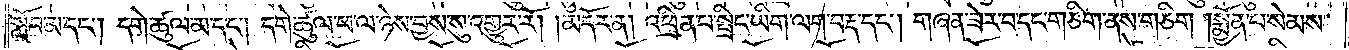སློབ་མ་དང༌། དགེ་ཚུལ་མ་དང༌། དགེ་ཚུལ་ཕ་ལ་ཉེས་བྱས་སུ་འགྱུར་རོ།    །མདོར་ན། འཕྲིན་པ་སྤྲིང་ཡིག་ལག་བརྡ་དང༌། གཞན་ཟེར་བ་དང་གཅིག་ནས་གཅིག །སྨྱོན་པ་སེམས་
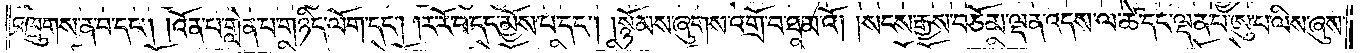འཁྲུགས་ན་བ་དང༌། །འོན་པ་གླེན་པ་གཉིད་ལོག་དང༌། །ར་རོ་བ་དང་མྱོས་པ་དང༌། །སྙོམས་ཞུགས་འགྲོ་བ་ཐ་མ་འོ། །སངས་རྒྱས་བཅོམ་ལྡན་འདས་ལ་ཚེ་དང་ལྡན་པ་ཨུ་པ་ལིས་ཞུས་
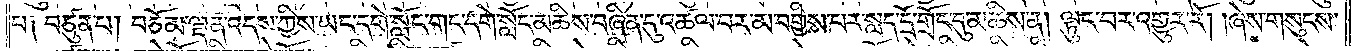པ༑ བཙུན་པ། བཅོམ་ལྡན་འདས་ཀྱིས་ཡང་དགེ་སློང་གང་དགེ་སློང་མཆིས་བཞིན་དུ་འཚལ་བར་མ་བགྱིས་པར་སླད་དྲོ་གྲོང་དུ་མཆིས་ན། ལྟུང་བར་འགྱུར་རོ། །ཞེས་གསུངས་
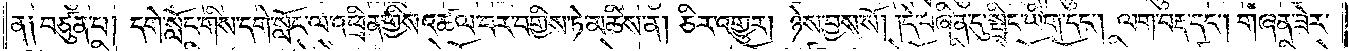ན༑ བཙུན་པ། དགེ་སློང་གིས་དགེ་སློང་ལ་འཕྲིན་གྱིས་འཚལ་བར་བགྱིས་ཏེ་མཆིས་ན། ཅིར་འགྱུར། ཉེས་བྱས་སོ། །དེ་བཞིན་དུ་སྤྲིང་ཡིག་དང༌། ལག་བརྡ་དང༌། གཞན་ཟེར་
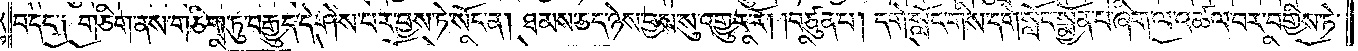བ་དང་༑ གཅིག་ནས་གཅིག་ཏུ་བརྒྱུད་དེ་ཤེས་པར་བྱས་ཏེ་སོང་ན། ཐམས་ཅད་ཉེས་བྱས་སུ་འགྱུར་རོ། །བཙུན་པ། དགེ་སློང་གིས་དགེ་སློང་སྨྱོན་པ་ཞིག་ལ་འཚལ་བར་བགྱིས་ཏེ་
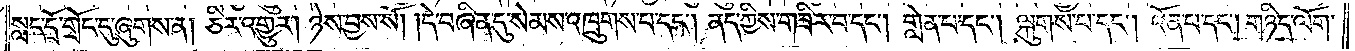སླད་དྲོ་གྲོང་དུ་ཞུགས་ན། ཅིར་འགྱུར། ཉེས་བྱས་སོ། །དེ་བཞིན་དུ་སེམས་འཁྲུགས་པ་དང༌། ནད་ཀྱིས་གཟིར་བ་དང༌། གླེན་པ་དང༌། ལྐུགས་པ་དང༌། འོན་པ་དང༌། གཉིད་ལོག་
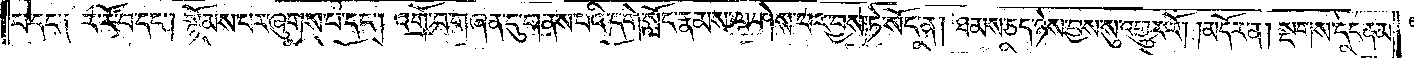པ་དང་༑ ར་རོ་བ་དང༌། སྙོམས་པར་ཞུགས་པ་དང༌། འགྲོ་བ་གཞན་དུ་གནས་པའི་དགེ་སློང་རྣམས་ལ་ཤེས་པར་བྱས་ཏེ་སོང་ན། ཐམས་ཅད་ཉེས་བྱས་སུ་འགྱུར་རོ། །མདོར་ན། སྔགས་དང་ནམ་
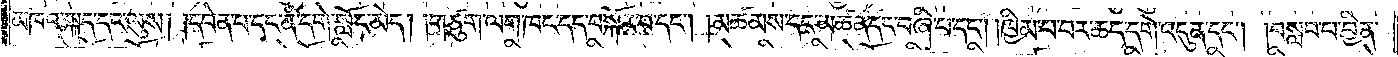མཁའ་སྐད་དང་ལུས། །དབེན་པ་དང་ནི་དགེ་སློང་མེད། །གཙུག་ལག་ཁང་དད་བསྐོར་བ་དང༌། །མཚམས་དང་མཚན་དང་བཞི་པ་དང༌། །ཁྱིམ་པ་བར་ཆད་དགེ་འདུན་དང༌། །བསླབ་པ་བྱིན་
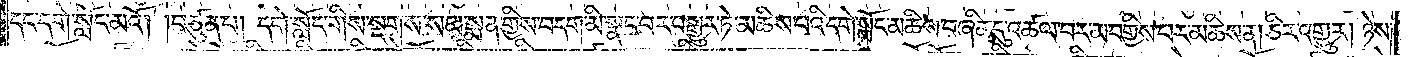དང་དགེ་སློང་མའོ། །བཙུན་པ། དགེ་སློང་གིས་སྔགས་སམ་སྨན་གྱིས་བདག་མི་སྣང་བར་བསྒྱུར་ཏེ་མཆིས་པའི་དགེ་སློང་མཆིས་བཞིན་དུ་འཚལ་བར་མ་བགྱིས་པར་མཆིས་ན། ཅིར་འགྱུར། ཉེས་
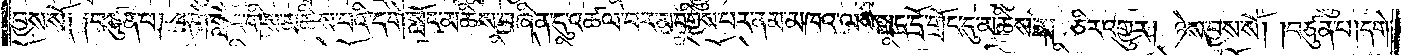བྱས་སོ༑ ༑བཙུན་པ། དགེ་སློང་གིས་མཆིས་པའི་དགེ་སློང་མཆིས་བཞིན་དུ་འཚལ་བར་མ་བགྱིས་པར་ནམ་མཁའ་ལས་སླད་དྲོ་གྲོང་དུ་མཆིས་ན། ཅིར་འགྱུར། ཉེས་བྱས་སོ། །བཙུན་པ། དགེ་
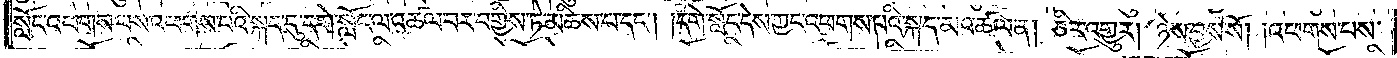སློང་འཕགས་པས་འཕགས་པའི་སྐད་དུ་དགེ་སློང་ལ་འཚལ་བར་བགྱིས་ཏེ་མཆིས་པ་དང༌། །དགེ་སློང་དེས་ཀྱང་འཕགས་པའི་སྐད་མ་འཚལ་ན། ཅིར་འགྱུར། ཉེས་བྱས་སོ། །འཕགས་པས་
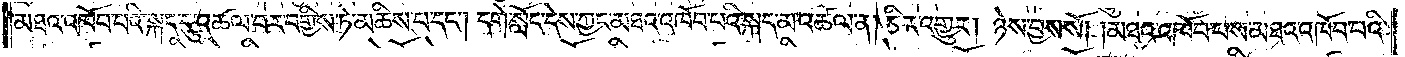མཐའ་འཁོབ་པའི་སྐད་དུ་འཚལ་བར་བགྱིས་ཏེ་མཆིས་པ་དང༌། དགེ་སློང་དེས་ཀྱང་མཐའ་འཁོབ་པའི་སྐད་མ་འཚལ་ན། ཅིར་འགྱུར། ཉེས་བྱས་སོ། །མཐའ་འཁོབ་པས་མཐའ་འཁོབ་པའི་
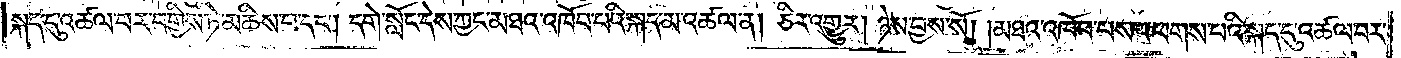སྐད་དུ་འཚལ་བར་བགྱིས་ཏེ་མཆིས་པ་དང༌། དགེ་སློང་དེས་ཀྱང་མཐའ་འཁོབ་པའི་སྐད་མ་འཚལ་ན། ཅིར་འགྱུར། ཉེས་བྱས་སོ། །མཐའ་འཁོབ་པས་འཕགས་པའི་སྐད་དུ་འཚལ་བར་
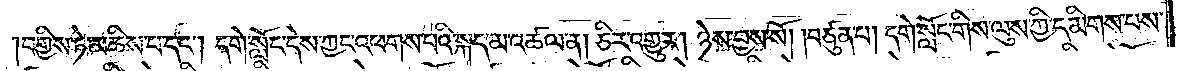།བགྱིས་ཏེ་མཆིས་པ་དང༌། དགེ་སློང་དེས་ཀྱང་འཕགས་པའི་སྐད་མ་འཚལ་ན། ཅིར་འགྱུར། ཉེས་བྱས་སོ། །བཙུན་པ། དགེ་སློང་གིས་ལུས་ཀྱི་དམིགས་པས་
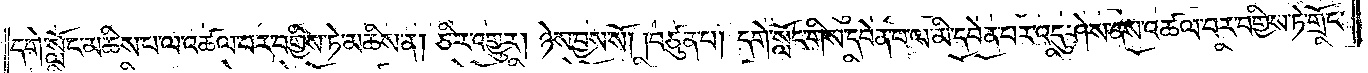དགེ་སློང་མཆིས་པ་ལ་འཚལ་བར་བགྱིས་ཏེ་མཆིས་ན། ཅིར་འགྱུར། ཉེས་བྱས་སོ། །བཙུན་པ། དགེ་སློང་གིས་དབེན་པ་ལ་མི་དབེན་པར་འདུ་ཤེས་ནས་འཚལ་བར་བགྱིས་ཏེ་གྲོང་
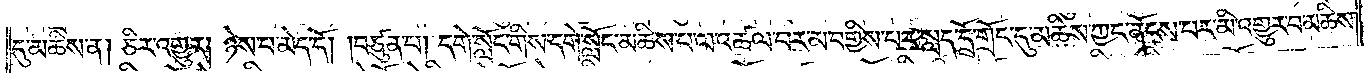དུ་མཆིས་ན། ཅིར་འགྱུར། ཉེས་པ་མེད་དོ། །བཙུན་པ། དགེ་སློང་གིས་དགེ་སློང་མཆིས་པ་ལ་འཚལ་བར་མ་བགྱིས་པར་སླད་དྲོ་གྲོང་དུ་མཆིས་ཀྱང་ནོངས་པར་མི་འགྱུར་བ་མཆིས་
